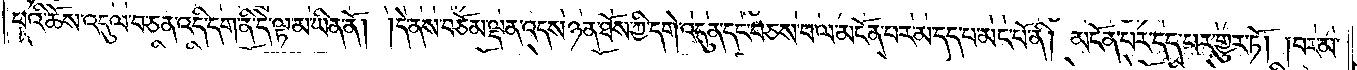པའི་ཆོས་འདུལ་བ་ཅན་འདི་དག་ནི་དེ་ལྟ་མ་ཡིན་ནོ། །དེ་ནས་བཅོམ་ལྡན་འདས་ཉན་ཐོས་ཀྱི་དགེ་འདུན་དང་བཅས་པ་ལ་མངོན་པར་མ་དད་པ་མང་པོ་ནི། མངོན་པར་དད་པར་གྱུར་ཏོ། །བར་མ་
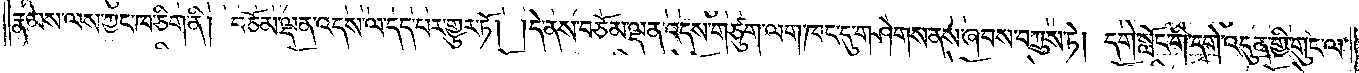རྣམས་ལས་ཀྱང་ཁ་ཅིག་ནི། བཅོམ་ལྡན་འདས་ལ་དད་པར་གྱུར་ཏོ། །དེ་ནས་བཅོམ་ལྡན་འདས་གཙུག་ལག་ཁང་དུ་གཤེགས་ནས་ཞབས་བཀྲུས་ཏེ། དགེ་སློང་གི་དགེ་འདུན་གྱི་གུང་ལ་
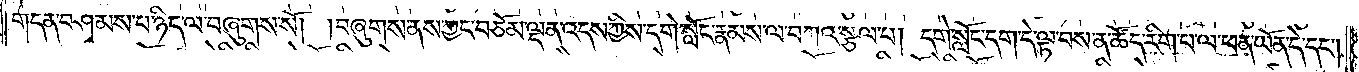གདན་བཤམས་པ་ཉིད་ལ་བཞུགས་སོ། །བཞུགས་ནས་ཀྱང་བཅོམ་ལྡན་འདས་ཀྱིས་དགེ་སློང་རྣམས་ལ་བཀའ་སྩལ་པ། དགེ་སློང་དག་དེ་ལྟ་བས་ན་ཚོད་རིག་པ་ལ་ཕན་ཡོན་དེ་དང༌།
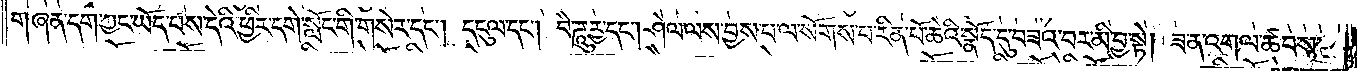གཞན་དག་ཀྱང་ཡོད་པས་དེའི་ཕྱིར་དགེ་སློང་གི་གསེར་དང༌། དངུལ་དང༌། བཻ་ཌཱུཪྻ་དང༌། ཤེལ་ལས་བྱས་པ་ལ་སོགས་པ་རིན་པོ་ཆེའི་སྣོད་དུ་བཟའ་བར་མི་བྱ་སྟེ། ཟ་ན་འགལ་ཚབས་
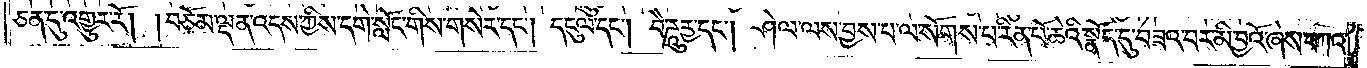ཅན་དུ་འགྱུར་རོ། །བཅོམ་ལྡན་འདས་ཀྱིས་དགེ་སློང་གིས་གསེར་དང༌། དངུལ་དང༌། བཻ་ཌཱུཪྻ་དང༌། ཤེལ་ལས་བྱས་པ་ལ་སོགས་པ་རིན་པོ་ཆེའི་སྣོད་དུ་བཟའ་བར་མི་བྱའོ་ཞེས་བཀའ་
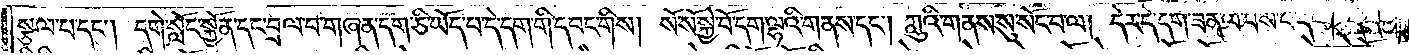སྩལ་པ་དང༌། དགེ་སློང་སྐྱོན་དང་བྲལ་བ་གཞན་དག་ཅི་ཡོད་པ་དེ་དག་གི་དབང་གིས། སོ་སོ་སྐྱེ་བོ་དག་ལྷའི་གནས་དང༌། ཀླུའི་གནས་སུ་སོང་བ་ལ། དེར་དེ་དག་ཟན་ལ་བོས་པ་དང༌། དེ་དག་
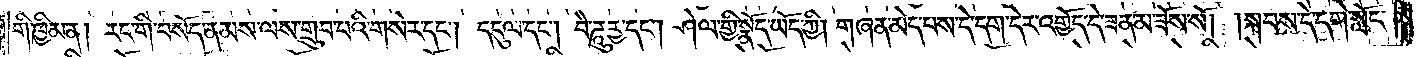གི་ཁྱིམ་ན། རང་གི་བསོད་ནམས་ལས་གྲུབ་པའི་གསེར་དང༌། དངུལ་དག། བཻ་ཌཱུཪྻ་དང༌། ཤེལ་གྱི་སྣོད་ཡོད་ཀྱི། གཞན་མེད་པས་དེ་དག་དེར་འགྱོད་དེ་ཟན་མ་ཟོས་སོ། །སྐབས་དེ་དགེ་སློང་
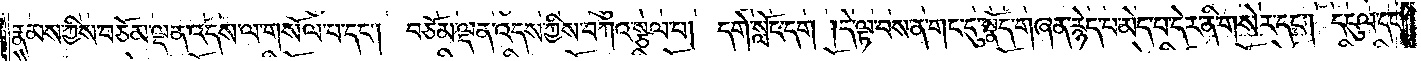རྣམས་ཀྱིས་བཅོམ་ལྡན་འདས་ལ་གསོལ་པ་དང༌། བཅོམ་ལྡན་འདས་ཀྱིས་བཀའ་སྩལ་པ། དགེ་སློང་དག །དེ་ལྟ་བས་ན་གང་དུ་སྣོད་གཞན་རྙེད་པ་མེད་པ་དེར་ནི་གསེར་དང༌། དངུལ་དང༌།
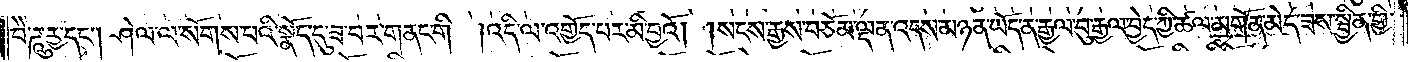བཻ་ཌཱུཪྻ་དང༌། ཤེལ་ལ་སོགས་པའི་སྣོད་དུ་ཟ་བར་གནང་གི། འདི་ལ་འགྱོད་པར་མི་བྱའོ། །སངས་རྒྱས་བཅོམ་ལྡན་འདས་མཉན་ཡོད་ན་རྒྱལ་བུ་རྒྱལ་བྱེད་ཀྱི་ཚལ་མགོན་མེད་ཟས་སྦྱིན་གྱི་
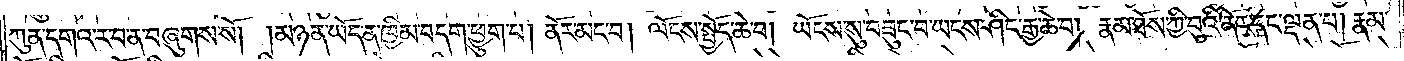ཀུན་དགའ་ར་བ་ན་བཞུགས་སོ། །མཉན་ཡོད་ན་ཁྱིམ་བདག་ཕྱུག་པ། ནོར་མང་བ། ལོངས་སྤྱོད་ཆེ་བ། ཡོངས་སུ་བཟུང་བ་ཡངས་ཤིང་རྒྱ་ཆེ་བ། རྣམ་ཐོས་ཀྱི་བུའི་ནེར་དང་ལྡན་པ། རྣམ་
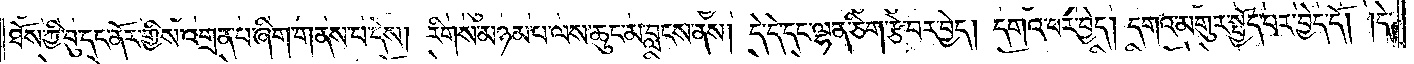ཐོས་ཀྱི་བུ་དང་ནོར་གྱིས་འགྲན་པ་ཞིག་གནས་པ་དེས། རིགས་མཉམ་པ་ལས་ཆུང་མ་བླངས་ནས། དེ་དེ་དང་ལྷན་ཅིག་རྩེ་བར་བྱེད། དགའ་བར་བྱེད། དགའ་མགུར་སྤྱོད་པར་བྱེད་དོ། །དེ་
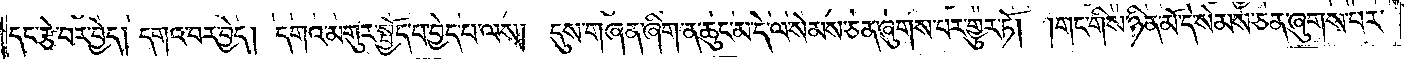དང་རྩེ་བར་བྱེད། དགའ་བར་བྱེད། དགའ་མགུར་སྤྱོད་པ་བྱེད་པ་ལས། དུས་གཞན་ཞིག་ན་ཆུང་མ་དེ་ལ་སེམས་ཅན་ཞུགས་པར་གྱུར་ཏོ། །གང་གིས་ཉིན་མོ་དེ་སེམས་ཅན་ཞུགས་པར་
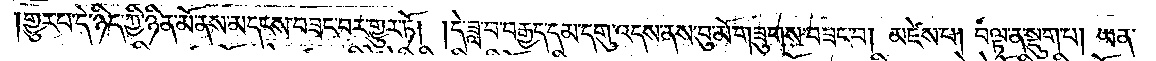གྱུར་བ་དེ་ཉིད་ཀྱི་ཉིན་མོ་ནས་མདངས་བཟང་བར་གྱུར་ཏོ། །དེ་ཟླ་བ་བརྒྱད་དམ་དགུ་འདས་ནས་བུ་མོ་གཟུགས་བཟང་བ། མཛེས་པ། བལྟ་ན་སྡུག་པ། ཡན་
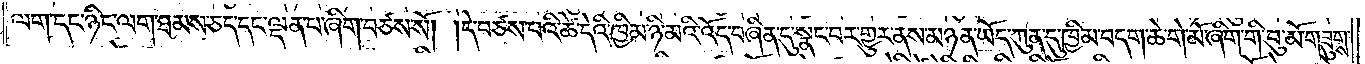ལག་དང་ཉིང་ལག་ཐམས་ཅད་དང་ལྡན་པ་ཞིག་བཙས་སོ། །དེ་བཙས་པའི་ཚེ་དེའི་ཁྱིམ་ཉི་མའི་འོད་བཞིན་དུ་སྣང་བར་གྱུར་ན་མཉན་ཡོད་ཀུན་དུ་ཁྱིམ་བདག་ཆེ་གེ་མོ་ཞིག་གི་བུ་མོ་གཟུགས་
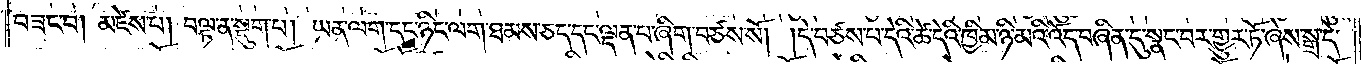བཟང་བ། མཛེས་པ། བལྟ་ན་སྡུག་པ། ཡན་ལག་དང་ཉིང་ལག་ཐམས་ཅད་དང་ལྡན་པ་ཞིག་བཙས་སོ། །དེ་བཙས་པ་དེའི་ཚེ་དེའི་ཁྱིམ་ཉི་མའི་འོད་བཞིན་དུ་སྣང་བར་གྱུར་ཏོ་ཞེས་སྒྲ་དེ་
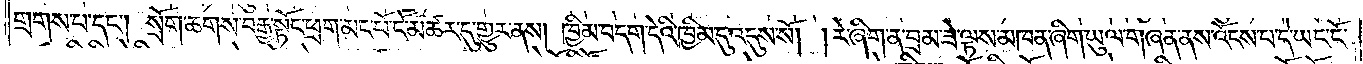གྲགས་པ་དང༌། སྲོག་ཆགས་བརྒྱ་སྟོང་ཕྲག་མང་པོ་ངོ་མཚར་དུ་གྱུར་ནས། ཁྱིམ་བདག་དེའི་ཁྱིམ་དུ་འདུས་སོ། །རེ་ཞིག་ནས་བྲམ་ཟེ་ལྟས་མཁན་ཞིག་ཡུལ་གཞན་ནས་འོངས་པ་དེ་ཡང་ངོ༌། །
